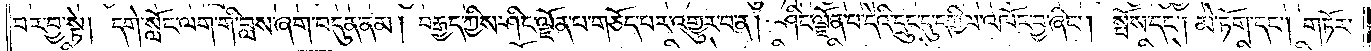བར་བྱ་སྟེ། དགེ་སློང་ལག་གི་བླས་ཞག་བདུན་ནམ། བརྒྱད་ཀྱིས་ཤིང་ལྗོན་པ་གཅོད་པར་འགྱུར་པ་ན། ཤིང་ལྗོན་པ་དེའི་དྲུང་དུ་དཀྱིལ་འཁོར་བྱ་ཞིང༌། སྤོས་དང༌། མེ་ཏོག་དང༌། གཏོར་
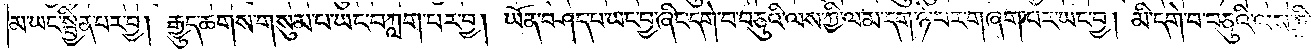མ་ཡང་སྦྱིན་པར་བྱ། རྒྱུད་ཆགས་གསུམ་པ་ཡང་བཀླག་པར་བྱ། ཡོན་བཤད་པ་ཡང་བྱ་ཞིང་དགེ་བ་བཅུའི་ལས་ཀྱི་ལམ་དག་ཉེ་བར་གཞག་པར་ཡང་བྱ། མི་དགེ་བ་བཅུའི་ལས་ཀྱི་
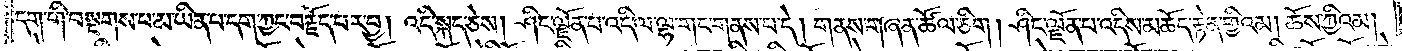དག་གི་བསྔགས་པ་མ་ཡིན་པ་དག་ཀྱང་བརྗོད་པར་བྱ། འདི་སྐད་ཅེས། ཤིང་ལྗོན་པ་འདི་ལ་ལྷ་གང་གནས་པ་དེ། གནས་གཞན་ཚོལ་ཅིག །ཤིང་ལྗོན་པ་འདིས་མཆོད་རྟེན་གྱིའམ། ཆོས་ཀྱིའམ།
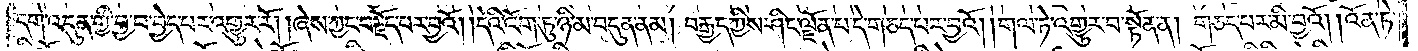དགེ་འདུན་གྱི་བྱ་བ་བྱེད་པར་འགྱུར་རོ། །ཞེས་ཀྱང་བརྗོད་པར་བྱའོ། །དེའི་འོག་ཏུ་ཉི་མ་བདུན་ནམ། བརྒྱད་ཀྱིས་ཤིང་ལྗོན་པ་དེ་གཅད་པར་བྱའོ། །གལ་ཏེ་འགྱུར་བ་སྟོན་ན། གཅད་པར་མི་བྱའོ། །འོན་ཏེ་
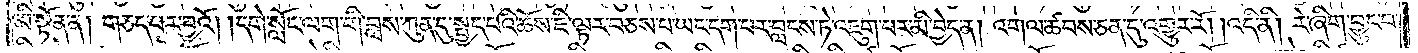མི་སྟོན་ན། གཅད་པར་བྱའོ། །དགེ་སློང་ལག་གི་བླས་ཀུན་དུ་སྤྱད་པའི་ཆོས་ཇི་ལྟར་བཅས་པ་ཡང་དག་པར་བླངས་ཏེ་འཇུག་པར་མི་བྱེད་ན། འགལ་ཚབས་ཅན་དུ་འགྱུར་རོ། །འདི་ནི། རེ་ཞིག་བྱུང་བ་
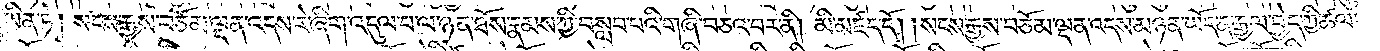ཡིན་ཏེ། སངས་རྒྱས་བཅོམ་ལྡན་འདས་རེ་ཞིག་འདུལ་བ་ལ་ཉན་ཐོས་རྣམས་ཀྱི་བསླབ་པའི་གཞི་བཅའ་བར་ནི། མི་མཛད་དོ། །སངས་རྒྱས་བཅོམ་ལྡན་འདས་མཉན་ཡོད་ན་རྒྱལ་བྱེད་ཀྱི་ཚལ་
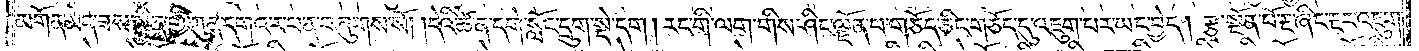མགོན་མེད་ཟས་སྦྱིན་གྱི་ཀུན་དགའ་ར་བ་ན་བཞུགས་སོ། །དེའི་ཚེ་ན་དགེ་སློང་དྲུག་སྡེ་དག །རང་གི་ལག་གིས་ཤིང་ལྗོན་པ་གཅོད་ཅིང་གཅོད་དུ་འཇུག་པར་ཡང་བྱེད། རྩྭ་སྔོན་པོ་རྔ་ཞིང་རྔར་འཇུག་
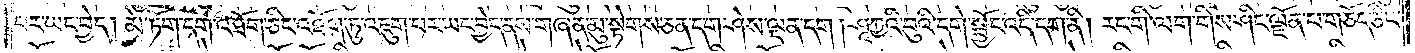པར་ཡང་བྱེད། མེ་ཏོག་དག་འཐོག་ཅིང་འཐོག་ཏུ་འཇུག་པར་ཡང་བྱེད་ནས་གཞན་མུ་སྟེགས་ཅན་དག་ཤེས་ལྡན་དག །ཤཱཀྱའི་བུའི་དགེ་སྦྱོང་འདི་དག་ནི། རང་གི་ལག་གིས་ཤིང་ལྗོན་པ་གཅོད་ཅིང་
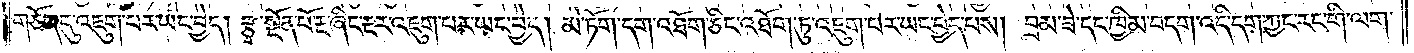གཅོད་དུ་འཇུག་པར་ཡང་བྱེད། རྩྭ་སྔོན་པོ་རྔ་ཞིང་རྔར་འཇུག་པར་ཡང་བྱེད། མེ་ཏོག་དག་འཐོག་ཅིང་འཐོག་ཏུ་འཇུག་པར་ཡང་བྱེད་པས། བྲམ་ཟེ་དང་ཁྱིམ་བདག་འདི་དག་ཀྱང་རང་གི་ལག་
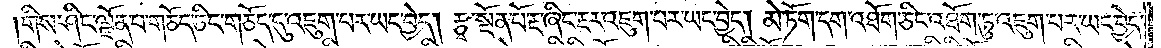གིས་ཤིང་ལྗོན་པ་གཅོད་ཅིང་གཅོད་དུ་འཇུག་པར་ཡང་བྱེད། རྩྭ་སྔོན་པོ་རྔ་ཞིང་རྔར་འཇུག་པར་ཡང་བྱེད། མེ་ཏོག་དག་འཐོག་ཅིང་འཐོག་ཏུ་འཇུག་པར་ཡང་བྱེད་
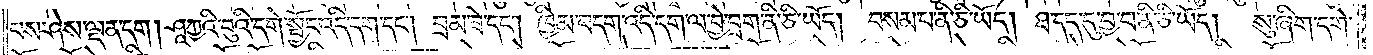པས་ཤེས་ལྡན་དག །ཤཱཀྱའི་བུའི་དགེ་སྦྱོང་འདི་དག་དང༌། བྲམ་ཟེ་དང༌། ཁྱིམ་བདག་འདི་དག་ལ་བྱེ་བྲག་ནི་ཅི་ཡོད། བསམ་པ་ནི་ཅི་ཡོད། ཐ་དད་དུ་བྱ་བ་ནི་ཅི་ཡོད། སུ་ཞིག་དགེ་
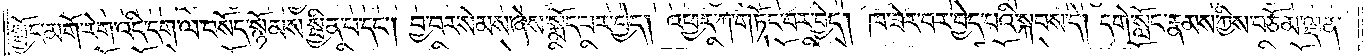སྦྱོང་མགོ་རེག་འདི་དག་ལ་བསོད་སྙོམས་སྦྱིན་པ་དང༌། བྱ་བར་སེམས་ཞེས་སྨོད་པར་བྱེད། འཕྱར་ཀ་གཏོང་བར་བྱེད། ཁ་ཟེར་བར་བྱེད་པའི་སྐབས་དེ། དགེ་སློང་རྣམས་ཀྱིས་བཅོམ་ལྡན་
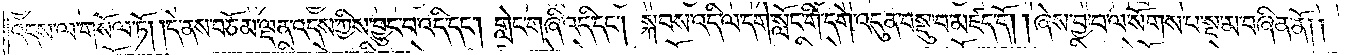འདས་ལ་གསོལ་ཏོ། །དེ་ནས་བཅོམ་ལྡན་འདས་ཀྱིས་བྱུང་བ་འདི་དང༌། གླེང་གཞི་འདི་དང༌། སྐབས་འདི་ལ་དགེ་སློང་གི་དགེ་འདུན་བསྡུ་བ་མཛད་དོ། །ཞེས་བྱ་བ་ལ་སོགས་པ་སྔ་མ་བཞིན་ནོ། །
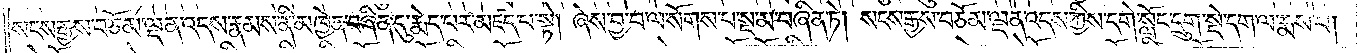སངས་རྒྱས་བཅོམ་ལྡན་འདས་རྣམས་ནི་མཁྱེན་བཞིན་དུ་རྨེད་པར་མཛད་པ་སྟེ། ཞེས་བྱ་བ་ལ་སོགས་པ་སྔ་མ་བཞིན་ཏེ། སངས་རྒྱས་བཅོམ་ལྡན་འདས་ཀྱིས་དགེ་སློང་དྲུག་སྡེ་དག་ལ་རྨས་པ།
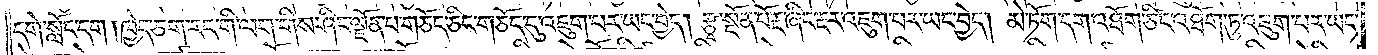དགེ་སློང་དག །ཁྱེད་ཅག་རང་གི་ལག་གིས་ཤིང་ལྗོན་པ་གཅོད་ཅིང་གཅོད་དུ་འཇུག་པར་ཡང་བྱེད། རྩྭ་སྔོན་པོ་རྔ་ཞིང་རྔར་འཇུག་པར་ཡང་བྱེད། མེ་ཏོག་དག་འཐོག་ཅིང་འཐོག་ཏུ་འཇུག་པར་ཡང་
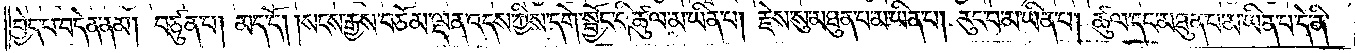བྱེད་པ་བདེན་ནམ། བཙུན་པ། མད་དོ། །སངས་རྒྱས་བཅོམ་ལྡན་འདས་ཀྱིས་དགེ་སྦྱོང་གི་ཚུལ་མ་ཡིན་པ། རྗེས་སུ་མཐུན་པ་མ་ཡིན་པ། རུང་བ་མ་ཡིན་པ། ཚུལ་དང་མཐུན་པ་མ་ཡིན་པ་དེ་ནི་
